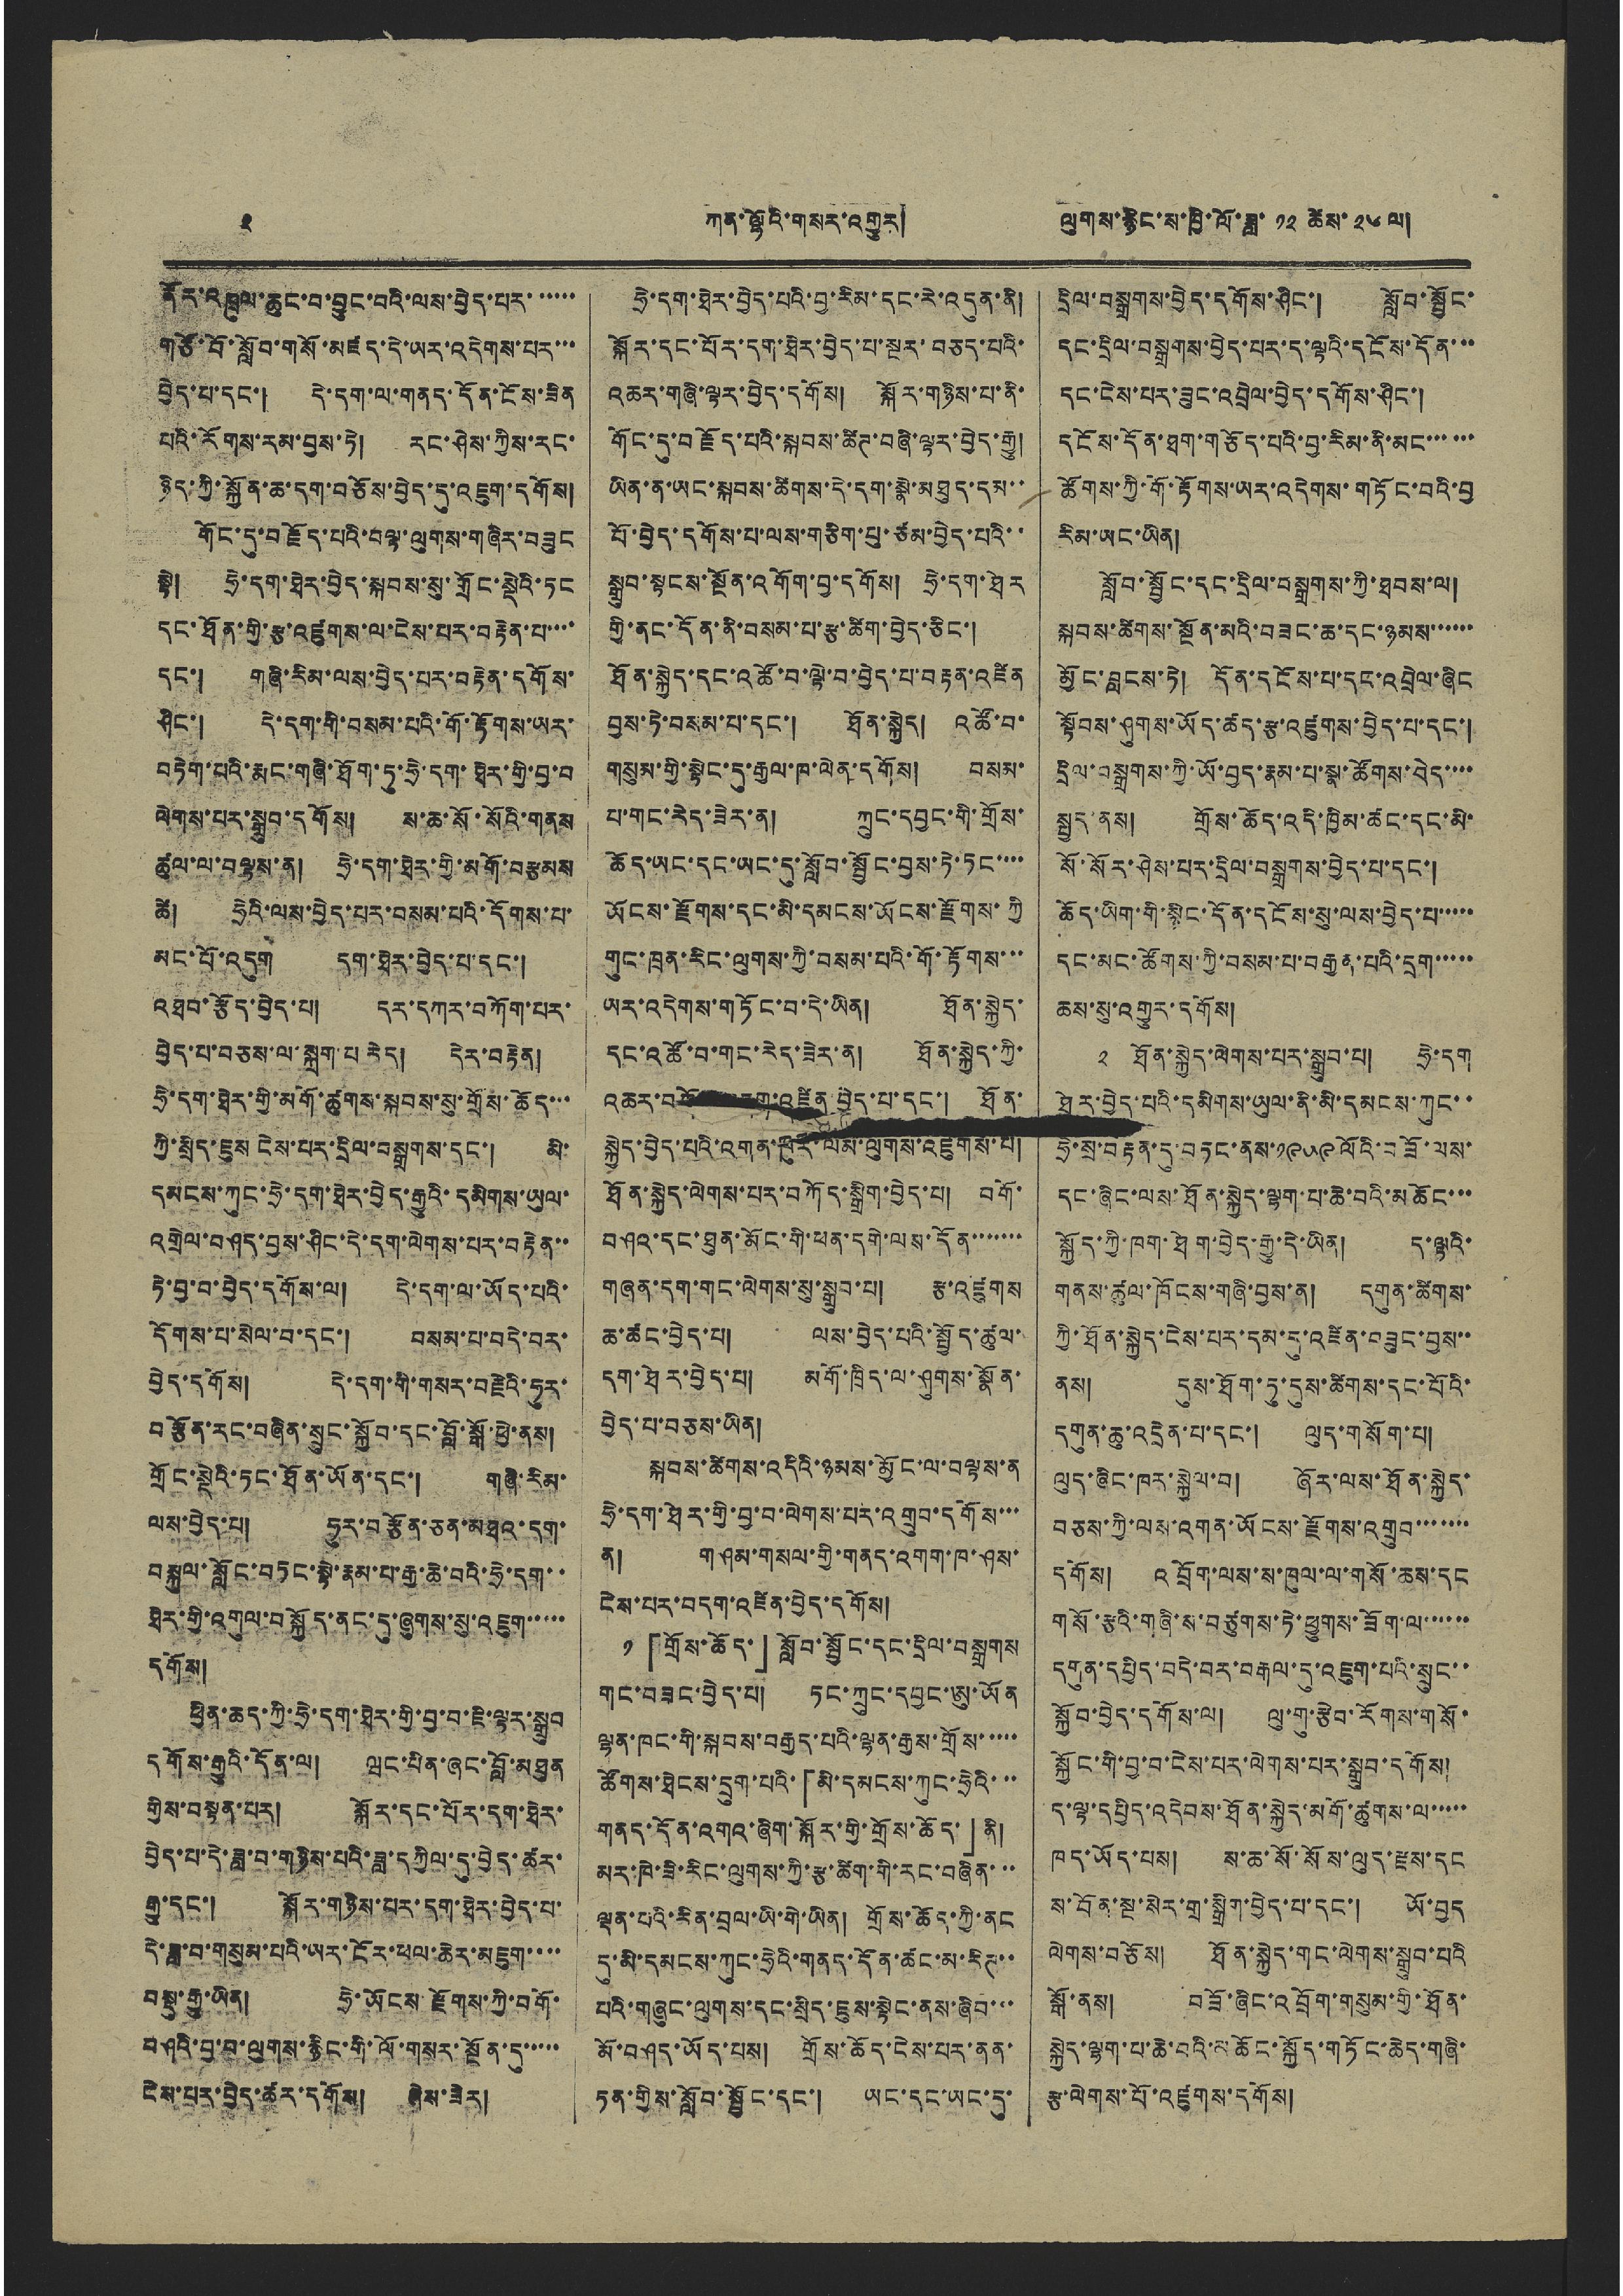༢ ཀན་ལྷོའི་གསར་འགྱུར། ལུགས་རྙིང་ས་ཁྱི་ལོ་ཟླ་ ༡༢ ཚེས་ ༢༦ ལ།
ནོར་འཁྲུལ་ཆུང་བ་བྱུང་བའི་ལས་བྱེད་པར་་་་་་
གཙོ་བོ་སློབ་གསོ་མཛད་དེ་ཡར་འདེགས་པར་་་
བྱེད་པ་དང་། དེ་དག་ལ་གནད་དོན་ངོས་ཟིན
པའི་རོགས་རམ་བྱས་ཏེ། རང་ཤེས་ཀྱིས་རང་
ཉིད་ཀྱི་སྐྱོན་ཆ་དག་བཅོས་བྱེད་དུ་འཇུག་དགོས།
གོང་དུ་བརྗོད་པའི་བལྟ་ལུགས་གཞིར་བཟུང
སྟེ། ཧྲེ་དག་ཐེར་བྱེད་སྐབས་སུ་གྲོང་སྡེའི་ཏང
དང་ཐོན་གྱི་རྩ་འཛུགས་ལ་ངེས་པར་བརྟེན་པ་་་་
དང་། གཞི་རིམ་ལས་བྱེད་པར་བརྟེན་དགོས་
ཤིང་། དེ་དག་གི་བསམ་པའི་གོ་རྟོགས་ཡར་
བཏེག་པའི་རྨང་གཞི་ཐོག་ཏུ་ཧྲེ་དག་ཐེར་གྱི་བྱ་བ
ལེགས་པར་སྒྲུབ་དགོས། ས་ཆ་སོ་སོའི་གནས
ཚུལ་ལ་བལྟས་ན། ཧྲེ་དག་ཐེར་གྱི་མགོ་བརྩམས
ཚེ། ཧྲེའི་ལས་བྱེད་པར་བསམ་པའི་དོགས་པ་
མང་པོ་འདུག དག་ཐེར་བྱེད་པ་དང་།
འཐབ་རྩོད་བྱེད་པ། དར་དཀར་བཀོག་པར་
བྱེད་པ་བཅས་ལ་སྐྲག་པ་རེད། དེར་བརྟེན།
ཧྲེ་དག་ཐེར་གྱི་མགོ་ཚུགས་སྐབས་སུ་གྲོས་ཆོད་་་
ཀྱི་སྲིད་ཇུས ངེས་པར་དྲིལ་བསྒྲགས་དང་། མི་
དམངས་ཀུང་ཧྲེ་དག་ཐེར་བྱེད་རྒྱུའི་དམིགས་ཡུལ་
འགྲེལ་བཤད་བྱས་ཤིང་དེ་དག་ལེགས་པར་བརྟེན་་
ཏེ་བྱ་བ་བྱེད་དགོས་ལ། དེ་དག་ལ་ཡོད་པའི་
དོགས་པ་སེལ་བ་དང་། བསམ་པ་བདེ་བར་
བྱེད་དགོས། དེ་དག་གི་གསར་བརྗེའི་ཧུར་
བརྩོན་རང་བཞིན་སྲུང་སྐྱོབ་དང་བློ་སྒོ་ཕྱེ་ནས།
གྲོང་སྡེའི་ཏང་ཐོན་ཡོན་དང་། གཞི་རིམ་
ལས་བྱེད་པ། ཧུར་བརྩོན་ཅན་མཐའ་དག་
བསྐུལ་སློང་བཏང་སྟེ་རྣམ་པ་རྒྱ་ཆེ་བའི་ཧྲེ་དག་་
ཐེར་གྱི་འགུལ་བསྐྱོད་ནང་དུ་ཞུགས་སུ་འཇུག་་་་་
དགོས།
ཕྱིན་ཆད་ཀྱི་ཧྲེ་དག་ཐེར་གྱི་བྱ་བ་ཇི་ལྟར་སྒྲུབ
དགོས་རྒྱུའི་དོན་ལ། ཝང་པིན་ཞང་བློ་མཐུན
གྱིས་བསྟན་པར། སྐོར་དང་པོར་དག་ཐེར་
བྱེད་པ་དེ་ཟླ་བ་གཉིས་པའི་ཟླ་དཀྱིལ་དུ་བྱེད་ཚར་
རྒྱུ་དང་། སྐོར་གཉིས་པར་དག་ཐེར་བྱེད་པ་
དེ་ཟླ་བ་གསུམ་པའི་ཡར་ངོར་ཕ་ཆེར་མཇུག་་་་
བསྡུ་རྒྱུ་ཡིན། ཧྲེ་ཡོངས་རྫོགས་ཀྱི་བགོ་
བཤའི་བྱ་བ་ལུགས་རྙིང་གི་ལོ་གསར་སྔོན་དུ་་་་་
ངེས་པར་བྱེད་ཚར་དགོས། ཞེས་ཟེར།
ཧྲེ་དག་ཐེར་བྱེད་པའི་བྱ་རིམ་དང་རེ་འདུན་ནི།
སྐོར་དང་པོར་དག་ཐེར་བྱེད་པ་སྔར་བཅད་པའི་
འཆར་གཞི་ལྟར་བྱེད་དགོས། སྐོར་གཉིས་པ་ནི་
གོང་དུ་བརྗོད་པའི་སྐབས་ཚིཌ་བཞི་ལྟར་བྱེད་རྒྱུ།
ཡིན་ན་ཡང་སྐབས་ཚིགས་དེ་དག་སྣེ་མཐུད་དམ་་
པོ་བྱེད་དགོས་པ་ལས་གཅིག་པུ་ཙམ་བྱེད་པའི་་
སྒྲུབ་སྟངས་སྔོན་འགོག་བྱ་དགོས། ཧྲེ་དག་ཐེར
གྱི་ནང་དོན་ནི་བསམ་པ་རྩ་ཚིག་བྱེད་ཅིང་།
ཐོན་སྐྱེད་དང་འཚོ་བ་ལྟེ་བ་བྱེད་པ་བརྟན་འཛིན
བྱས་ཏེ་བསམ་པ་དང་། ཐོན་སྐྱེད། འཚོ་བ་
གསུམ་གྱི་སྟེང་དུ་རྒྱལ་ཁ་ལེན་དགོས། བསམ་
པ་གང་རེད་ཟེར་ན། ཀྲུང་དབྱང་གི་གྲོས་
ཆོད་ཡང་དང་ཡང་དུ་སློབ་སྦྱོང་བྱས་ཏེ་ཏང་་་་
ཡོངས་རྫོགས་དང་མི་དམངས་ཡོངས་རྫོགས་ཀྱི
གུང་ཁྲན་རིང་ལུགས་ཀྱི་བསམ་པའི་གོ་རྟོགས་་་
ཡར་འདེགས་གཏོང་བ་དེ་ཡིན། ཐོན་སྐྱེད་
དང་འཚོ་བ་གང་རེད་ཟེར་ན། ཐོན་སྐྱེད་ཀྱི་
འཆར་བཀོད་བདག་འཛིན་བྱེད་པ་དང་། ཐོན་
སྐྱེད་བྱེད་པའི་འགན་ཁུར་ལམ་ལུགས་འཛུགས་པ།
ཐོན་སྐྱེད་ལེགས་པར་བཀོད་སྒྲིག་བྱེད་པ། བགོ་
བཤའ་དང་ཐུན་མོང་གི་ཕན་དགེ་ལས་དོན་་་་་་་
གཞན་དག་གང་ལེགས་སུ་སྒྲུབ་པ། རྩ་འཛུགས
ཆ་ཚང་བྱེད་པ། ལས་བྱེད་པའི་སྤྱོད་ཚུལ་
དག་ཐེར་བྱེད་པ། མགོ་ཁྲིད་ལ་ཤུགས་སྣོན་
བྱེད་པ་བཅས་ཡིན།
སྐབས་ཚིགས་འདིའི་ཉམས་མྱོང་ལ་བལྟས་ན
ཧྲེ་དག་ཐེར་གྱི་བྱ་བ་ལེགས་པར་འགྲུབ་དགོས་་་
ན། གཤམ་གསལ་གྱི་གནད་འགག་ཁ་ཤས་
ངེས་པར་བདག་འཛིན་བྱེད་དགོས།
༡ 「གྲོས་ཆོད་」 སློབ་སྦྱོང་དང་དྲིལ་བསྒྲགས
གང་བཟང་བྱེད་པ། ཏང་ཀྲུང་དབྱང་ཨུ་ཡོན
ལྷན་ཁང་གི་སྐབས་བརྒྱད་པའི་ལྷན་རྒྱས་གྲོས་་་་་
ཚོགས་ཐེངས་དྲུག་པའི་「མི་དམངས་ཀུང་ཧྲེའི་་་
གནད་དོན་འགའ་ཞིག་སྐོར་གྱི་གྲོས་ཆོད་」ནི།
མར་ཁེ་ཟི་རིང་ལུགས་ཀྱི་རྩ་ཚིག་གི་རང་བཞིན་་་
ལྡན་པའི་རིན་བྲལ་ཡི་གེ་ཡིན། གྲོས་ཆོད་ཀྱི་ནང
དུ་མི་དམངས་ཀུང་ཧྲེའི་གནད་དོན་ཚང་མ་རིཊ་་
པའི་གཞུང་ལུགས་དང་སྲིད་ཇུས་སྟེང་ནས་ཞིབ་་་
མོ་བཤད་ཡོད་པས། གྲོས་ཆོད་ངེས་པར་ནན་
ཏན་གྱིས་སློབ་སྦྱོང་དང་། ཡང་དང་ཡང་དུ་
དྲིལ་བསྒྲགས་བྱེད་དགོས་ཤིང་། སློབ་སྦྱོང་
དང་དྲིལ་བསྒྲགས་བྱེད་པར་ད་ལྟའི་དངོས་དོན་་་
དང་ངེས་པར་ཟུང་འབྲེལ་བྱེད་དགོས་ཤིང་།
དངོས་དོན་ཐག་གཅོད་པའི་བྱ་རིམ་ནི་མང་་་་་་
ཚོས་ཀྱི་གོ་རྟོགས་ཡར་འདེགས་གཏོང་བའི་བྱ
རིམ་ཡང་ཡིན།
སློབ་སྦྱོང་དང་དྲིལ་བསྒྲགས་ཀྱི་ཐབས་ལ།
སྐབས་ཚིགས་སྔོན་མའི་བཟང་ཆ་དང་ཉམས་་་་་་
མྱོང་བླངས་ཏེ། དོན་དངོས་པ་དང་འབྲེལ་ཞིང
སྟོབས་ཤུགས་ཡོད་ཚད་རྩ་འཛུགས་བྱེད་པ་དང་།
དྲིལ་བསྒྲགས་ཀྱི་ཡོ་བྱད་རྣམ་པ་སྣ་ཚོགས་བེད་་་་
སྤྱད་ནས། གྲོས་ཆོད་འདི་ཁྱིམ་ཚང་དང་མི་
སོ་སོར་ཤེས་པར་དྲིལ་བསྒྲགས་བྱེད་པ་དང་།
ཆོད་ཡིག་གི་སྙིང་དོན་དངོས་སུ་ལས་བྱེད་པ་་་་་
དང་མང་ཚོགས་ཀྱི་བསམ་པ་བརྒྱན་པའི་དྲག་་་་་
ཆས་སུ་འགྱུར་དགོས།
༢ ཐོན་སྐྱེད་ལེགས་པར་སྒྲུབ་པ། ཧྲེ་དག
ཐེར་བྱེད་པའི་དམིགས་ཡུལ་ནི་མི་དམངས་ཀུང་་
ཧྲེ་སྲ་བརྟན་དུ་བཏང་ནས་ ༡༩༥༩ ལོའི་བཟོ་ལས་
དང་ཞིང་ལས་ཐོན་སྐྱེད་ལྷག་པ་ཆེ་བའི་མཆོང་་་
སྐྱོད་ཀྱི་ཁག་ཐེག་བྱེད་རྒྱུ་དེ་ཡིན། ད་ལྟའི་
གནས་ཚུལ་ཁོངས་གཞི་བྱས་ན། དགུན་ཚིགས་
ཀྱི་ཐོན་སྐྱེད་ངེས་པར་དམ་དུ་འཛིན་བཟུང་བྱས་་
ནས། དུས་ཐོག་ཏུ་དུས་ཚིགས་དང་པོའི་
དགུན་ཆུ་འདྲེན་པ་དང་། ལུད་གསོག་པ།
ལུད་ཞིང་ཁར་སྐྱེལ་བ། ཞོར་ལས་ཐོན་སྐྱེད་
བཅས་ཀྱི་ལས་འགན་ཡོངས་རྫོགས་འགྲུབ་་་་་་་
དགོས། འབྲོག་ལས་ས་ཁུལ་ལ་གསོ་ཆས་དང
གསོ་རྩའི་གཞི་ས་བཙུགས་ཏེ་ཕྱུགས་ཟོག་ལ་་་་་་
དགུན་དཔྱིད་བདེ་བར་བརྒལ་དུ་འཇུག་པའི་སྲུང་་
སྐྱོབ་བྱེད་དགོས་ལ། ལུ་གུ་རྩེབ་རོགས་གསོ་
སྐྱོང་གི་བྱ་བ་ངེས་པར་ལེགས་པར་སྒྲུབ་དགོས།
ད་ལྟ་དཔྱིད་འདེབས་ཐོན་སྐྱེད་མགོ་ཚུགས་ལ་་་་་
ཁད་ཡོད་པས། ས་ཆ་སོ་སོས་ལུད་རྫས་དང
ས་བོན་སྔ་སེར་གྲ་སྒྲིག་བྱེད་པ་དང་། ཡོ་བྱད
ལེགས་བཅོས། ཐོན་སྐྱེད་གང་ལེགས་སྒྲུབ་པའི
སྒོ་ནས། བཟོ་ཞིང་འབྲོག་གསུམ་གྱི་ཐོན་
སྐྱེད་ལྷག་པ་ཆེ་བའི་མཆོང་སྐྱོད་གཏོང་ཆེད་གཞི་
རྩ་ལེགས་པོ་འཛུགས་དགོས།
